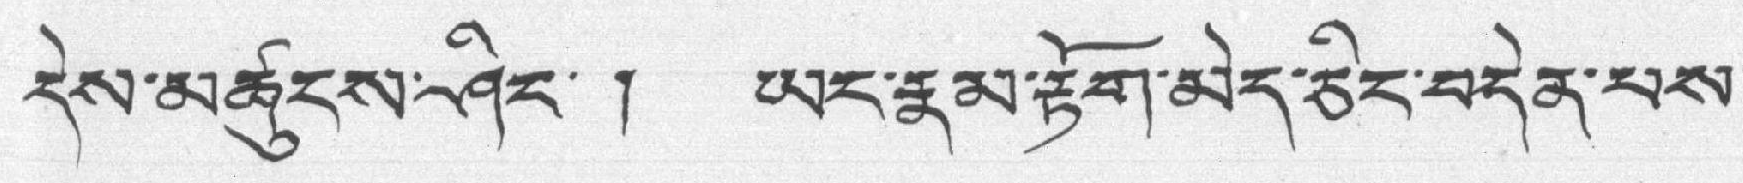དེས་མཚུངས་ཤིང་ ། ཡང་རྣམ་རྟོག་མེད་ཅིང་བདེན་པས་
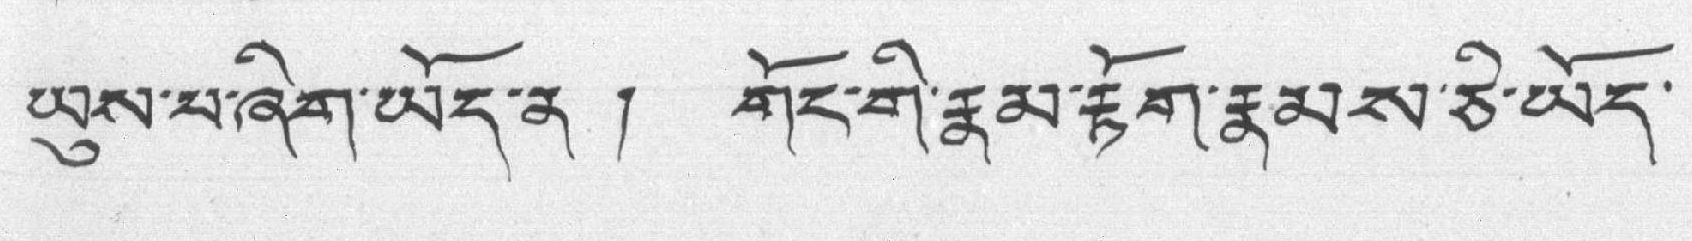ཡུས་པ་ཞིག་ཡོད་ན ། གོང་གི་རྣམ་རྟོག་རྣམས་ཅི་ཡོད་
